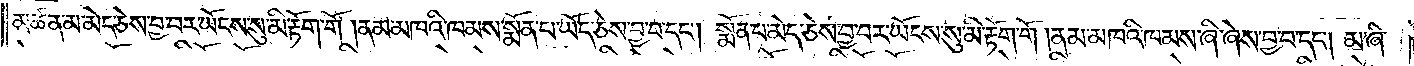མཚན་མ་མེད་ཅེས་བྱ་བར་ཡོངས་སུ་མི་རྟོག་གོ །ནམ་མཁའི་ཁམས་སྨོན་པ་ཡོད་ཅེས་བྱ་བ་དང༌། སྨོན་པ་མེད་ཅེས་བྱ་བར་ཡོངས་སུ་མི་རྟོག་གོ །ནམ་མཁའི་ཁམས་ཞི་ཞེས་བྱ་བ་དང༌། མ་ཞི་
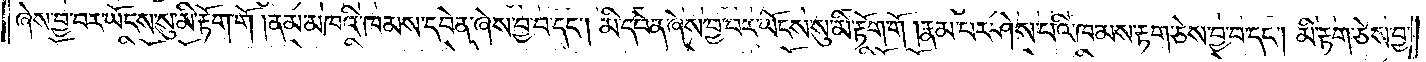ཞེས་བྱ་བར་ཡོངས་སུ་མི་རྟོག་གོ །ནམ་མཁའི་ཁམས་དབེན་ཞེས་བྱ་བ་དང༌། མི་དབེན་ཞེས་བྱ་བར་ཡོངས་སུ་མི་རྟོག་གོ །རྣམ་པར་ཤེས་པའི་ཁམས་རྟག་ཅེས་བྱ་བ་དང༌། མི་རྟག་ཅེས་བྱ་
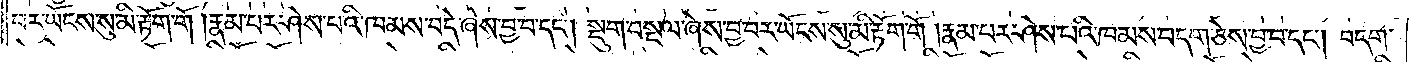བར་ཡོངས་སུ་མི་རྟོག་གོ །རྣམ་པར་ཤེས་པའི་ཁམས་བདེ་ཞེས་བྱ་བ་དང༌། སྡུག་བསྔལ་ཞེས་བྱ་བར་ཡོངས་སུ་མི་རྟོག་གོ །རྣམ་པར་ཤེས་པའི་ཁམས་བདག་ཅེས་བྱ་བ་དང༌། བདག་
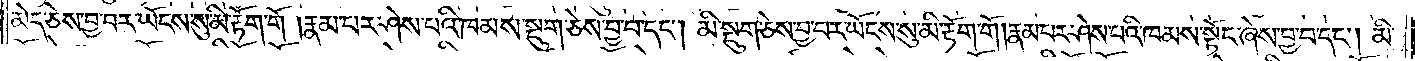མེད་ཅེས་བྱ་བར་ཡོངས་སུ་མི་རྟོག་གོ །རྣམ་པར་ཤེས་པའི་ཁམས་སྡུག་ཅེས་བྱ་བ་དང༌། མི་སྡུག་ཅེས་བྱ་བར་ཡོངས་སུ་མི་རྟོག་གོ །རྣམ་པར་ཤེས་པའི་ཁམས་སྟོང་ཞེས་བྱ་བ་དང༌། མི་
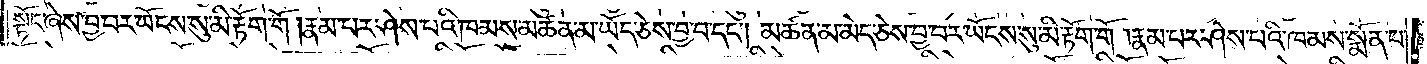སྟོང་ཞེས་བྱ་བར་ཡོངས་སུ་མི་རྟོག་གོ །རྣམ་པར་ཤེས་པའི་ཁམས་མཚན་མ་ཡོད་ཅེས་བྱ་བ་དང༌། མཚན་མ་མེད་ཅེས་བྱ་བར་ཡོངས་སུ་མི་རྟོག་གོ །རྣམ་པར་ཤེས་པའི་ཁམས་སྨོན་པ་
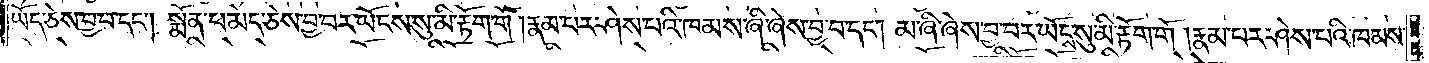ཡོད་ཅེས་བྱ་བ་དང༌། སྨོན་པ་མེད་ཅེས་བྱ་བར་ཡོངས་སུ་མི་རྟོག་གོ །རྣམ་པར་ཤེས་པའི་ཁམས་ཞི་ཞེས་བྱ་བ་དང༌། མ་ཞི་ཞེས་བྱ་བར་ཡོངས་སུ་མི་རྟོག་གོ །རྣམ་པར་ཤེས་པའི་ཁམས་
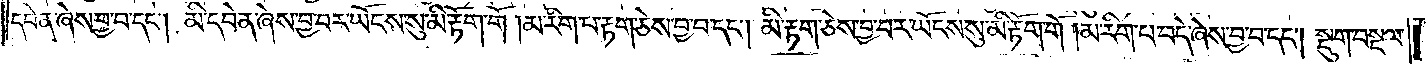དབེན་ཞེས་བྱ་བ་དང༌། མི་དབེན་ཞེས་བྱ་བར་ཡོངས་སུ་མི་རྟོག་གོ །མ་རིག་པ་རྟག་ཅེས་བྱ་བ་དང༌། མི་རྟག་ཅེས་བྱ་བར་ཡོངས་སུ་མི་རྟོག་གོ །མ་རིག་པ་བདེ་ཞེས་བྱ་བ་དང༌། སྡུག་བསྔལ་
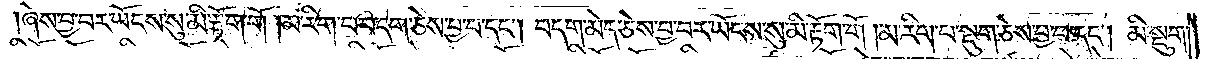ཞེས་བྱ་བར་ཡོངས་སུ་མི་རྟོག་གོ །མ་རིག་པ་བདག་ཅེས་བྱ་བ་དང༌། བདག་མེད་ཅེས་བྱ་བར་ཡོངས་སུ་མི་རྟོག་གོ །མ་རིག་པ་སྡུག་ཅེས་བྱ་བ་དང༌། མི་སྡུག་
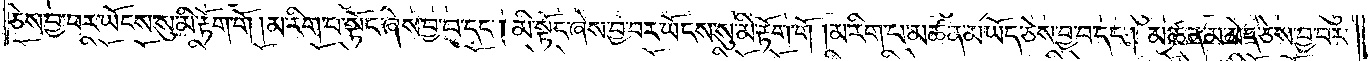ཅེས་བྱ་བར་ཡོངས་སུ་མི་རྟོག་གོ །མ་རིག་པ་སྟོང་ཞེས་བྱ་བ་དང༌། མི་སྟོང་ཞེས་བྱ་བར་ཡོངས་སུ་མི་རྟོག་གོ །མ་རིག་པ་མཚན་མ་ཡོད་ཅེས་བྱ་བ་དང༌། མཚན་མ་མེད་ཅེས་བྱ་བར་
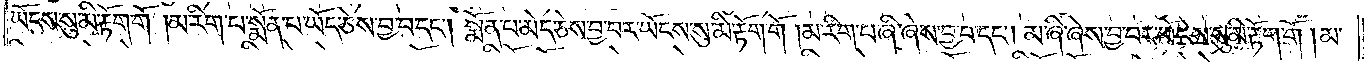ཡོངས་སུ་མི་རྟོག་གོ །མ་རིག་པ་སྨོན་པ་ཡོད་ཅེས་བྱ་བ་དང༌། སྨོན་པ་མེད་ཅེས་བྱ་བར་ཡོངས་སུ་མི་རྟོག་གོ །མ་རིག་པ་ཞི་ཞེས་བྱ་བ་དང༌། མ་ཞི་ཞེས་བྱ་བར་ཡོངས་སུ་མི་རྟོག་གོ །མ་
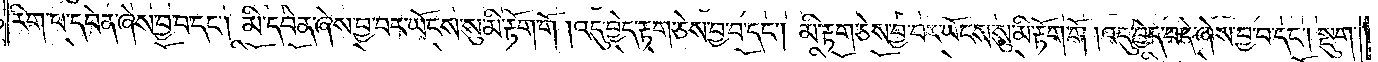རིག་པ་དབེན་ཞེས་བྱ་བ་དང༌། མི་དབེན་ཞེས་བྱ་བར་ཡོངས་སུ་མི་རྟོག་གོ །འདུ་བྱེད་རྟག་ཅེས་བྱ་བ་དང༌། མི་རྟག་ཅེས་བྱ་བར་ཡོངས་སུ་མི་རྟོག་གོ །འདུ་བྱེད་བདེ་ཞེས་བྱ་བ་དང༌། སྡུག་
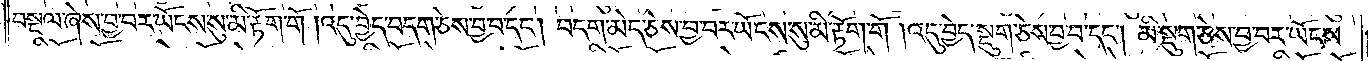བསྔལ་ཞེས་བྱ་བར་ཡོངས་སུ་མི་རྟོག་གོ །འདུ་བྱེད་བདག་ཅེས་བྱ་བ་དང༌། བདག་མེད་ཅེས་བྱ་བར་ཡོངས་སུ་མི་རྟོག་གོ །འདུ་བྱེད་སྡུག་ཅེས་བྱ་བ་དང༌། མི་སྡུག་ཅེས་བྱ་བར་ཡོངས་
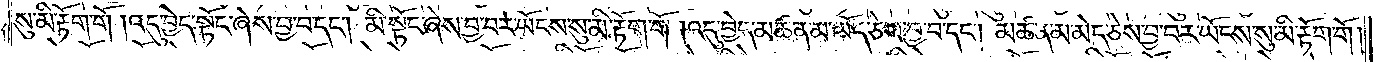སུ་མི་རྟོག་གོ །འདུ་བྱད་སྟོང་ཞེས་བྱ་བ་དང༌། མི་སྟོང་ཞེས་བྱ་བར་ཡོངས་སུ་མི་རྟོག་གོ །འདུ་བྱེད་མཚན་མ་ཡོད་ཅེས་བྱ་བ་དང༌། མཚན་མ་མེད་ཅེས་བྱ་བར་ཡོངས་སུ་མི་རྟོག་གོ །
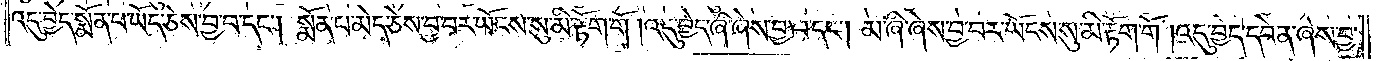འདུ་བྱེད་སྨོན་པ་ཡོད་ཅེས་བྱ་བ་དང༌། སྨོན་པ་མེད་ཅེས་བྱ་བར་ཡོངས་སུ་མི་རྟོག་གོ །འདུ་བྱེད་ཞི་ཞེས་བྱ་བ་དང༌། མ་ཞི་ཞེས་བྱ་བར་ཡོངས་སུ་མི་རྟོག་གོ །འདུ་བྱེད་དབེན་ཞེས་བྱ་
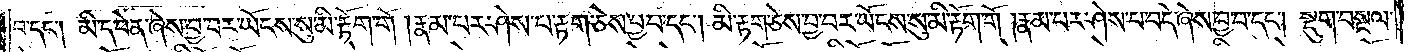བ་དང༌། མི་དབེན་ཞེས་བྱ་བར་ཡོངས་སུ་མི་རྟོག་གོ །རྣམ་པར་ཤེས་པ་རྟག་ཅེས་བྱ་བ་དང༌། མི་རྟག་ཅེས་བྱ་བར་ཡོངས་སུ་མི་རྟོག་གོ །རྣམ་པར་ཤེས་པ་བདེ་ཞེས་བྱ་བ་དང༌། སྡུག་བསྔལ་
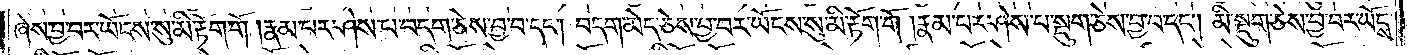ཞེས་བྱ་བར་ཡོངས་སུ་མི་རྟོག་གོ །རྣམ་པར་ཤེས་པ་བདག་ཅེས་བྱ་བ་དང༌། བདག་མེད་ཅེས་བྱ་བར་ཡོངས་སུ་མི་རྟོག་གོ །རྣམ་པར་ཤེས་པ་སྡུག་ཅེས་བྱ་བ་དང༌། མི་སྡུག་ཅེས་བྱ་བར་ཡོངས་
